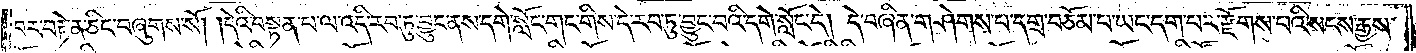བར་བརྟེན་ཅིང་བཞུགས་སོ། །དེའི་བསྟན་པ་ལ་འདི་རབ་ཏུ་བྱུང་ནས་དགེ་སློང་གང་གིས་དེ་རབ་ཏུ་བྱུང་བའི་དགེ་སློང་དེ། དེ་བཞིན་གཤེགས་པ་དགྲ་བཅོམ་པ་ཡང་དག་པར་རྫོགས་པའི་སངས་རྒྱས་
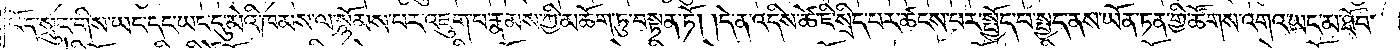འོད་སྲུང་གིས་ཡང་དང་ཡང་དུ་མེའི་ཁམས་ལ་སྙོམས་པར་འཇུག་པ་རྣམས་ཀྱི་མཆོག་ཏུ་བསྟན་ཏོ། །དེ་ན་འདིས་ཚེ་ཇི་སྲིད་པར་ཚངས་པར་སྤྱོད་པ་སྤྱད་ནས་ཡོན་ཏན་གྱི་ཚོགས་འགའ་ཡང་མ་ཐོབ་
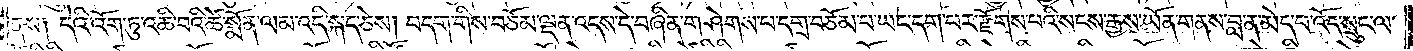ནས། དེའི་འོག་ཏུ་འཆི་བའི་ཚེ་སྨོན་ལམ་འདི་སྐད་ཅེས། བདག་གིས་བཅོམ་ལྡན་འདས་དེ་བཞིན་གཤེགས་པ་དགྲ་བཅོམ་པ་ཡང་དག་པར་རྫོགས་པའི་སངས་རྒྱས་ཡོན་གནས་བླ་ན་མེད་པ་འོད་སྲུང་ལ་
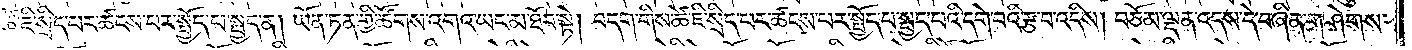ཚེ་ཇི་སྲིད་པར་ཚངས་པར་སྤྱོད་པ་སྤྱད་ན། ཡོན་ཏན་གྱི་ཚོགས་འགའ་ཡང་མ་ཐོབ་སྟེ། བདག་གིས་ཚེ་ཇི་སྲིད་པར་ཚངས་པར་སྤྱོད་པ་སྤྱད་པའི་དགེ་བའི་རྩ་བ་འདིས། བཅོམ་ལྡན་འདས་དེ་བཞིན་གཤེགས་
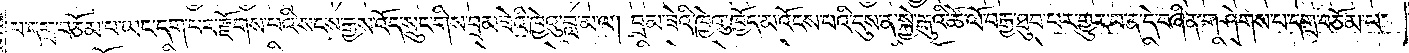པ་དགྲ་བཅོམ་པ་ཡང་དག་པར་རྫོགས་པའི་སངས་རྒྱས་འོད་སྲུང་གིས་བྲམ་ཟེའི་ཁྱེའུ་བླ་མ་ལ། བྲམ་ཟེའི་ཁྱེའུ་ཁྱོད་མ་འོངས་པའི་དུས་ན་སྐྱེ་རྒུའི་ཚེ་ལོ་བརྒྱ་ཐུབ་པར་གྱུར་པ་ན་དེ་བཞིན་གཤེགས་པ་དགྲ་བཅོམ་པ་
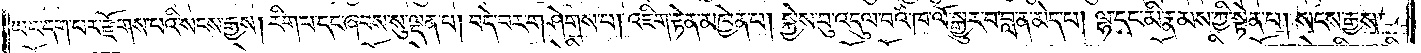ཡང་དག་པར་རྫོགས་པའི་སངས་རྒྱས། རིག་པ་དང་ཞབས་སུ་ལྡན་པ། བདེ་བར་གཤེགས་པ། འཇིག་རྟེན་མཁྱེན་པ། སྐྱེས་བུ་འདུལ་བའི་ཁ་ལོ་སྒྱུར་བ་བླ་ན་མེད་པ། ལྷ་དང་མི་རྣམས་ཀྱི་སྟོན་པ། སངས་རྒྱས་
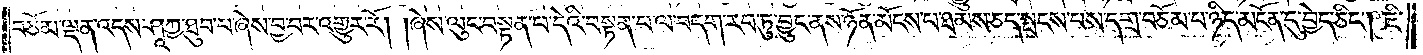བཅོམ་ལྡན་འདས་ཤཱཀྱ་ཐུབ་པ་ཞེས་བྱ་བར་འགྱུར་རོ། །ཞེས་ལུང་བསྟན་པ་དེའི་བསྟན་པ་ལ་བདག་རབ་ཏུ་བྱུང་ནས་ཉོན་མོངས་པ་ཐམས་ཅད་སྤངས་པས་དགྲ་བཅོམ་པ་ཉིད་མངོན་དུ་བྱེད་ཅིང༌། ཇི་
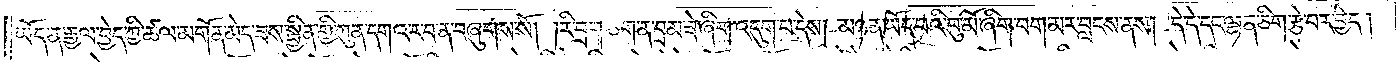ཡོད་ན་རྒྱལ་བྱེད་ཀྱི་ཚལ་མགོན་མེད་ཟས་སྦྱིན་གྱི་ཀུན་དགའ་ར་བ་ན་བཞུགས་སོ། །རི་བྲག་ཅིག་ན་བྲམ་ཟེ་ཞིག་འདུག་པ་དེས། མཉན་ཡོད་པའི་བུ་མོ་ཞིག་བག་མར་བླངས་ནས། དེ་དེ་དང་ལྷན་ཅིག་རྩེ་བར་བྱེད།
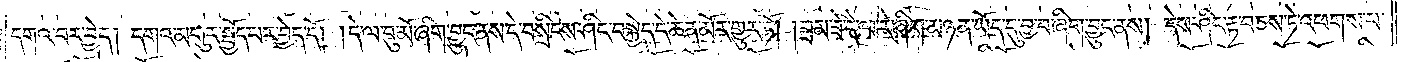དགའ་བར་བྱེད། དགའ་མགུར་སྤྱོད་པར་བྱེད་དོ། །དེ་ལ་བུ་མོ་ཞིག་བྱུང་ནས་དེ་བསྲིངས་ཤིང་བསྐྱེད་དེ་ཆེན་མོར་གྱུར་ཏོ། །བྲམ་ཟེ་དེ་ལ་རེ་ཞིག་མཉན་ཡོད་དུ་བྱ་བ་ཞིག་བྱུང་ནས། དེས་ཤིང་རྟ་བཅས་ཏེ་འཕགས་པ་
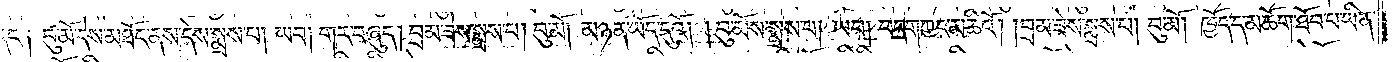དང༌། བུ་མོ་དེས་མཐོང་ནས་དེས་སྨྲས་པ། ཡབ། གར་བཞུད། བྲམ་ཟེས་སྨྲས་པ། བུ་མོ། མཉན་ཡོད་དུའོ། །བུ་མོས་སྨྲས་པ། ཡབ། བདག་ཀྱང་མཆིའོ། །བྲམ་ཟེས་སྨྲས་པ། བུ་མོ། ཁྱོད་ད་མཆོག་ཐོབ་པ་ཡིན་
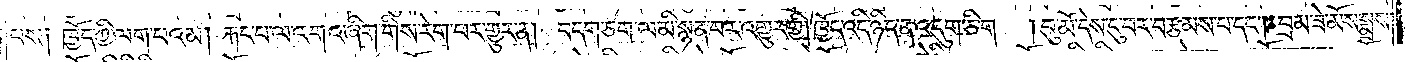པས། ཁྱོད་ཀྱི་ལག་པའམ། རྐང་པ་ལ་འགའ་ཞིག་གིས་རེག་པར་གྱུར་ན། བདག་ཅག་ལ་མི་སྙན་པར་འགྱུར་གྱི། ཁྱོད་འདི་ཉིད་ན་འདུག་ཅིག །བུ་མོ་དེས་ངུ་བར་བརྩམས་པ་དང༌། བྲམ་ཟེ་མོས་སྨྲས་
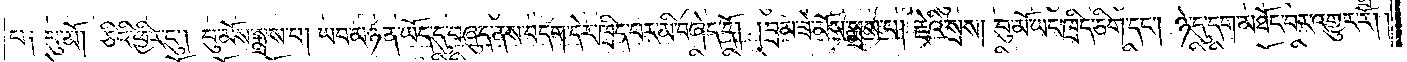པ། བུ་མོ། ཅིའི་ཕྱིར་དུ། བུ་མོས་སྨྲས་པ། ཡབ་མཉན་ཡོད་དུ་བཞུད་ནས་བདག་དེར་ཁྲིད་པར་མི་བཞེད་དོ། །བྲམ་ཟེ་མོས་སྨྲས་པ། རྗེའི་སྲས། བུ་མོ་ཡང་ཁྲིད་ཅིག་དང༌། ཉེ་དུ་དག་མཐོང་བར་འགྱུར་རོ། །
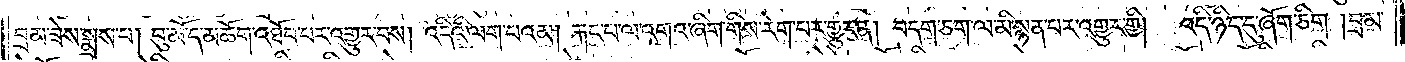བྲམ་ཟེས་སྨྲས་པ། བུ་མོ་ད་མཆོག་འཐོབ་པར་འགྱུར་བས། འདིའི་ལག་བའམ། རྐང་པ་ལ་འགའ་ཞིག་གིས་རེག་པར་གྱུར་ན། བདག་ཅག་ལ་མི་སྙན་པར་འགྱུར་གྱི། འདི་ཉིད་དུ་ཞོག་ཅིག །བྲམ་
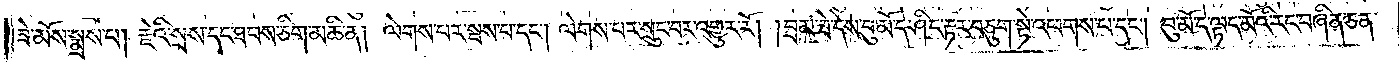ཟེ་མོས་སྨྲས་པ། རྗེའི་སྲས་དང་ཐབས་ཅིག་མཆི་ན། ལེགས་པར་སྤས་པ་དང༌། ལེགས་པར་སྲུང་བར་འགྱུར་རོ། །བྲམ་ཟེ་དེས་བུ་མོ་དེ་ཤིང་རྟར་བཅུག་སྟེ་འཕགས་པ་དང༌། བུ་མོ་དེ་ལྟད་མོའི་རང་བཞིན་ཅན་
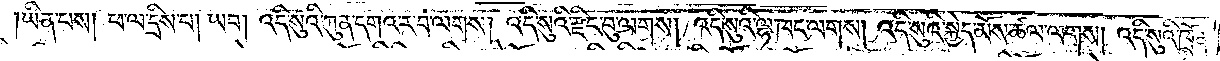ཡིན་པས། ཕ་ལ་དྲིས་པ། ཡབ། འདི་སུའི་ཀུན་དགའ་ར་བ་ལགས། འདི་སུའི་རྫིང་བུ་ལགས། འདི་སུའི་ལྷ་ཁང་ལགས། འདི་སུའི་སྐྱེད་མོས་ཚལ་ལགས། འདི་སུའི་ཁྲོན་
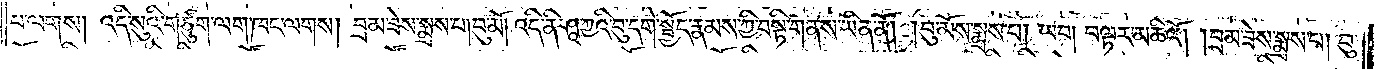པ་ལགས། འདི་སུའི་གཙུག་ལག་ཁང་ལགས། བྲམ་ཟེས་སྨྲས་པ། བུ་མོ། འདི་ནི་ཤཱ་ཀྱའི་བུ་དགེ་སྤྱོད་རྣམས་ཀྱི་བསྟི་གནས་ཡིན་ནོ། །བུ་མོས་སྨྲས་པ། ཡབ། བལྟར་མཆིའོ། །བྲམ་ཟེས་སྨྲས་པ། བུ་
